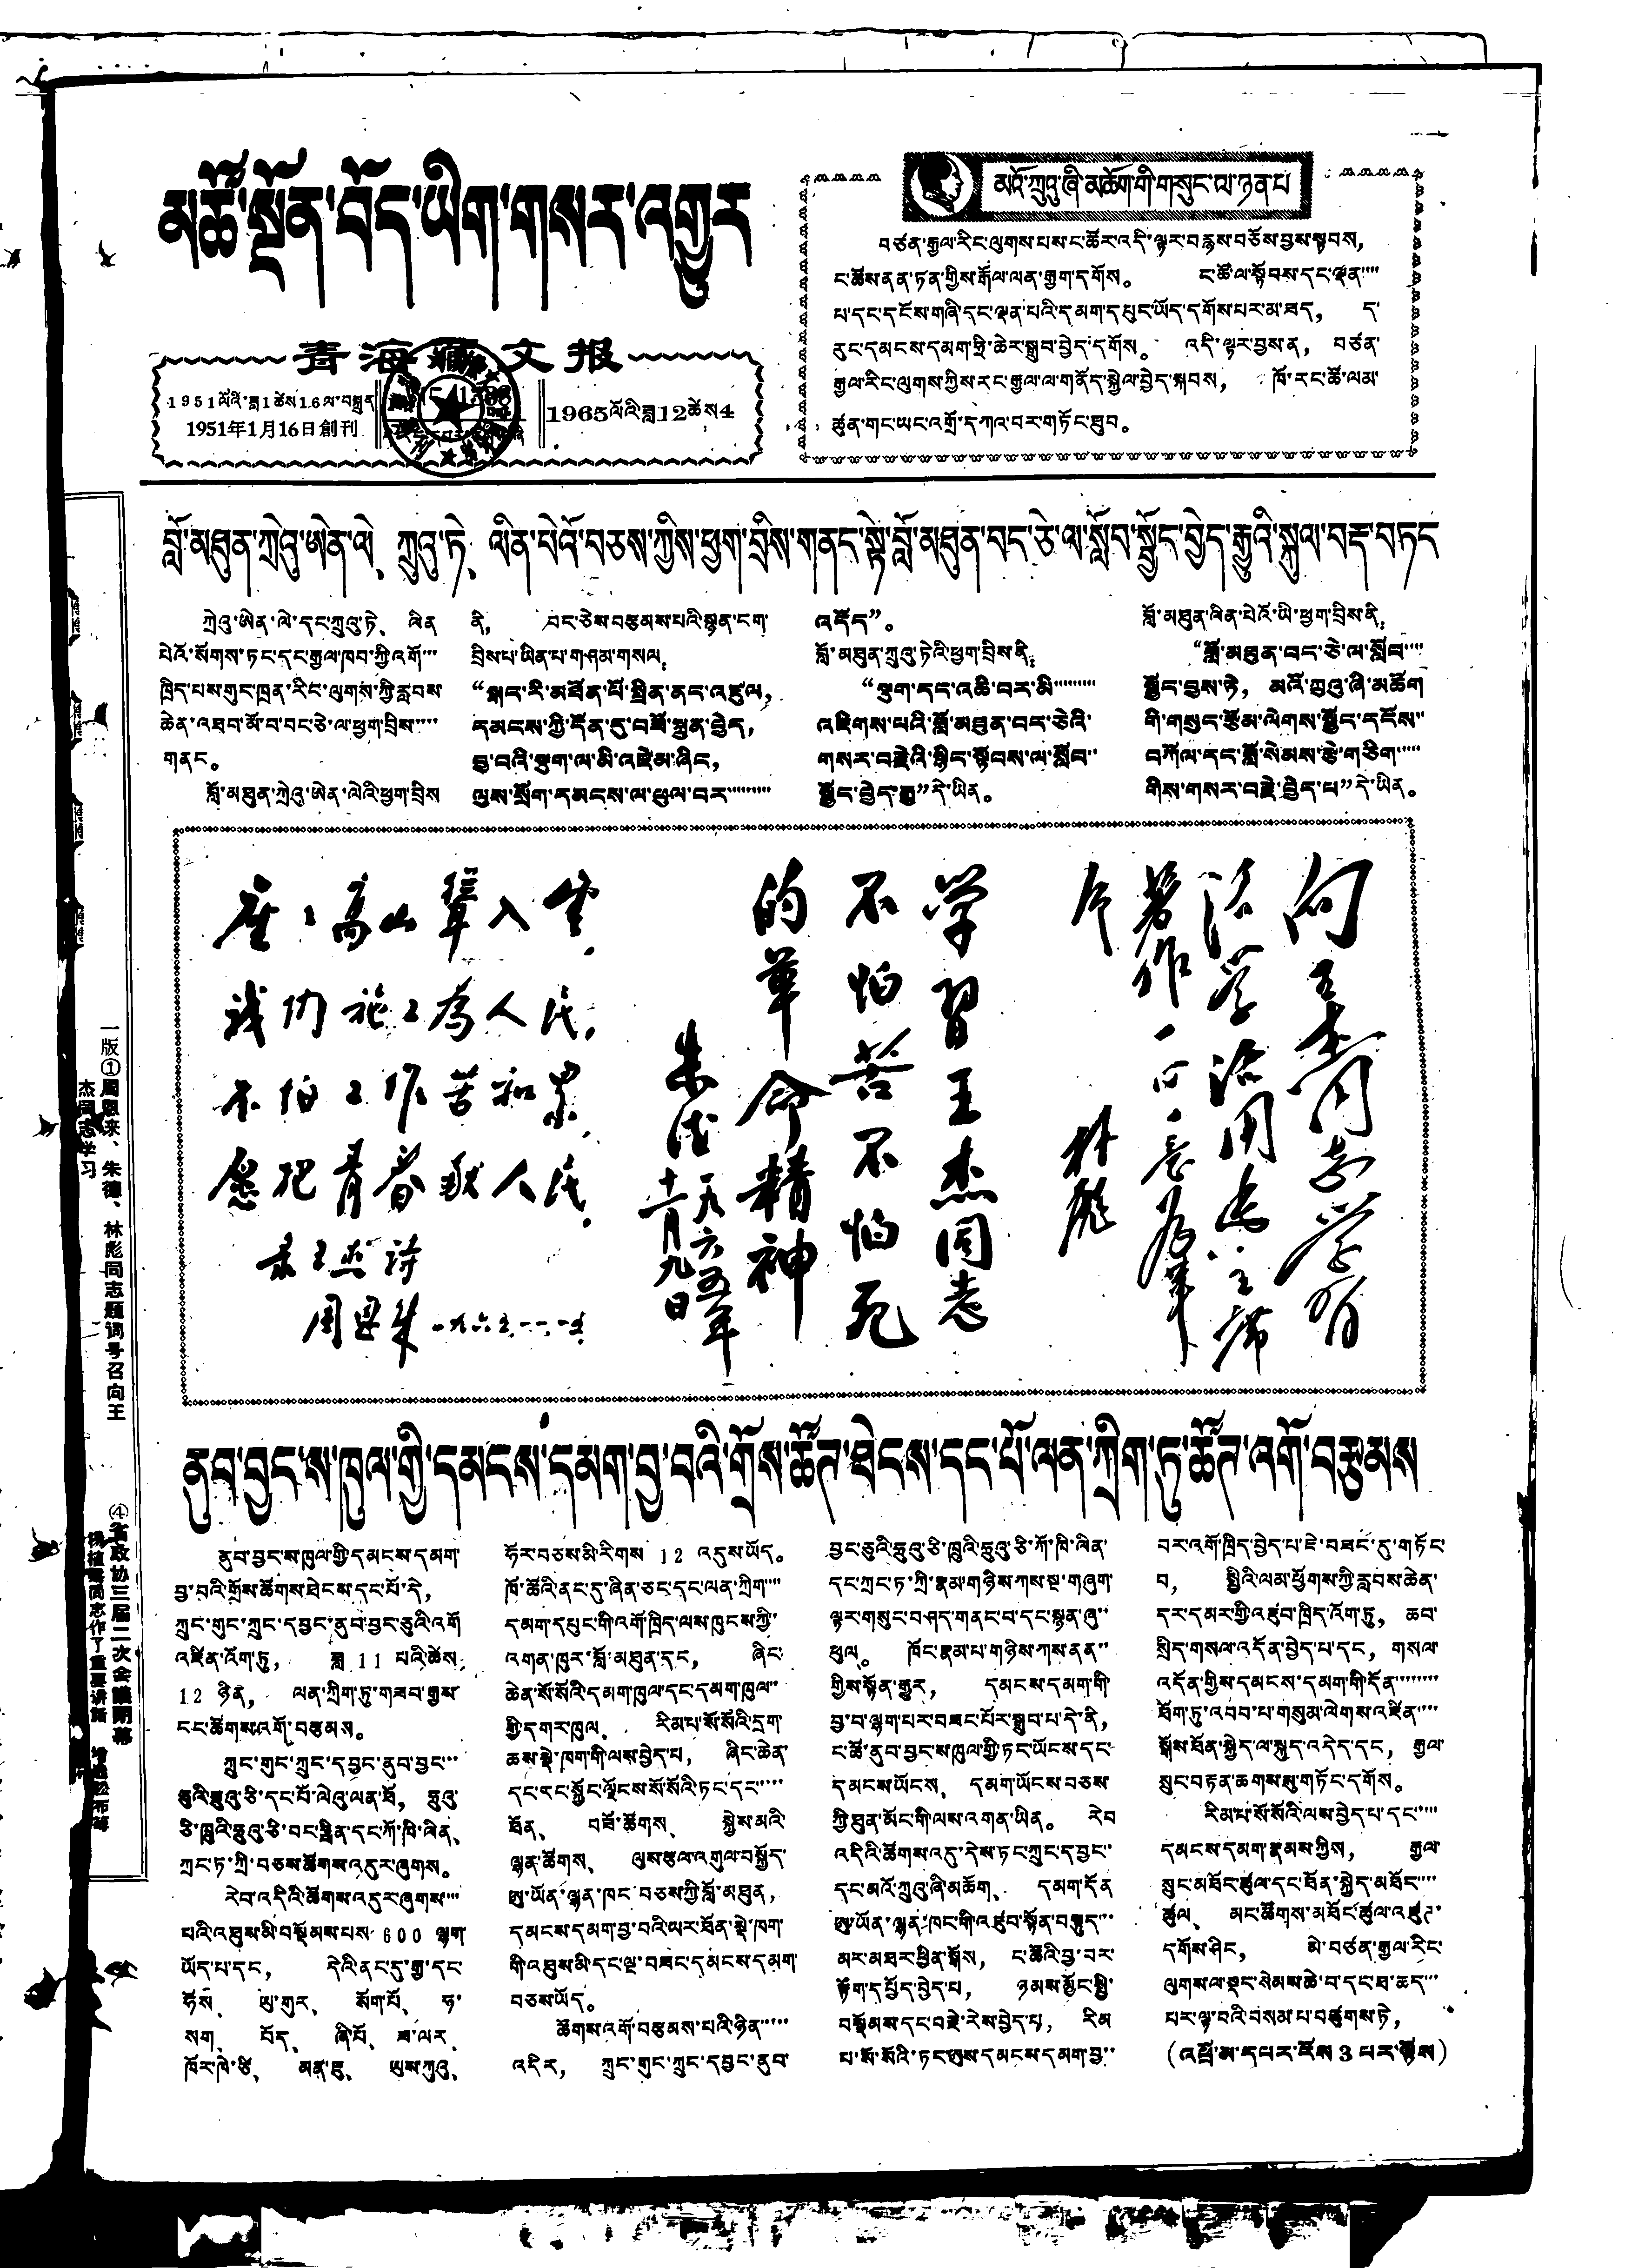མཚོ་སྔོན་བོད་ཡིག་གསར་འགྱུར
青海藏文报
1951ལོའི་ཟླ 1 ཚེས 16 ལ་བསྐྲུན
1951年1月16日創刊
ཨང་ 1338
དེ་རིང་དཔར་ངོས་བཞི
1965ལོའི་ཟླ 12 ཚེས 4
མོ་ཀྲུའུ་ཞི་མཆོག་གི་གསུང་ལ་ཉན་པ
བཙན་རྒྱལ་རིང་ལུགས་པས་ང་ཚོར་འདི་ལྟར་བརྙས་བཅོས་བྱས་སྟབས，
ང་ཚོས་ནན་ཏན་གྱིས་རྒོལ་ལན་རྒྱག་དགོས。 ང་ཚོ་ལ་སྟོབས་དང་ལྡན་་་་
པ་དང་དངོས་གཞི་དང་ལྡན་པའི་དམག་དཔུང་ཡོད་དགོས་པར་མ་ཟད， ད་
རུང་དམངས་དམག་ཧྲི་ཆེར་སྒྲུབ་བྱེད་དགོས。 འདི་ལྟར་བྱས་ན， བཙན་
རྒྱལ་རིང་ལུགས་ཀྱིས་རང་རྒྱལ་ལ་གནོད་སྐྱེལ་བྱེད་སྐབས， ཁོ་རང་ཚོ་ལམ་
ཚུན་གང་ཡང་འགྲོ་དཀའ་བར་གཏོང་ཐུབ。
一版①周恩来、朱德、林彪同志題词号召向王
杰同志学习
④省政协三届二次会議閉幕
楊植霖同志作了重要讲话 增选松布等
བློ་མཐུན་ཀྲེའུ་ཨེན་ལེ、ཀྲུའུ་ཏེ、ལིན་པེའོ་བཅས་ཀྱིས་ཕྱག་བྲིས་གནང་སྟེ་བློ་མཐུན་བང་ཅེ་ལ་སློབ་སྦྱོང་བྱེད་རྒྱུའི་སྐུལ་བརྡ་བཏང
ཀྲེའུ་ཨེན་ལེ་དང་ཀྲུའུ་ཏེ、ལིན
པེའོ་སོགས་ཏང་དང་རྒྱལ་ཁབ་ཀྱི་འགོ་་་
ཁྲིད་པས་གུང་ཁྲན་རིང་ལུགས་ཀྱི་རླབས་
ཆེན་འཐབ་མོ་བ་བང་ཅེ་ལ་ཕྱག་བྲིས་་་་་
གནང。
བློ་མཐུན་ཀྲེའུ་ཨེན་ལེའི་ཕྱག་བྲིས
ནི，བང་ཅེས་བརྩམས་པའི་སྙན་ངག་
བྲིས་པ་ཡིན་པ་གཤམ་གསལ：
“སྒང་རི་མཐོན་པོ་སྤྲིན་ནང་འཛུལ，
དམངས་ཀྱི་དོན་དུ་བཟོ་སྐྲུན་བྱེད，
བྱ་བའི་སྡུག་ལ་མི་འཛེམ་ཞིང，
ལུས་སྲོག་དམངས་ལ་ཕུལ་བར་་་་་་་་་
འདོད”。
བློ་མཐུན་ཀྲུའུ་ཏེའི་ཕྱག་བྲིས་ནི：
“སྡུག་དང་འཆི་བར་མི་་་་་་་་་
འཇིགས་པའི་བློ་མཐུན་བང་ཅེའི་
གསར་བརྗེའི་སྙིང་སྟོབས་ལ་སློབ་་
སྦྱོང་བྱེད་རྒྱ”དེ་ཡིན。
བློ་མཐུན་ལིན་པེའོ་ཡི་ཕྱག་བྲིས་ནི：
“བློ་མཐུན་བང་ཅེ་ལ་སློབ་་་་
སྦྱོང་བྱས་ཏེ，མའོ་ཀྲུའུ་ཞི་མཆོག
གི་གསུང་རྩོམ་ལེགས་སྦྱོང་དངོས་་
བཀོལ་དང་བློ་སེམས་རྩེ་གཅིག་་་་་
གིས་གསར་བརྗེ་བྱེད་པ”དེ་ཡིན。
座座高山聳入雲，
我们施工為人民，
不怕工作苦和累，
愿把青春献人民。
录王杰诗
周恩来 一九六五，一一，一五。
学習王杰同志
不怕苦不怕死
的革命精神
朱德 一九六五年
十一月九日
向王杰同志学習
活学活用為主席
著作一心一意為革
命
林彪
ནུབ་བྱངས་ཁུལ་གྱི་དམངས་དམག་བྱ་བའི་གྲོས་ཚོཊ་ཐེངས་དང་པོ་ལན་ཀྲིག་ཏུ་ཚོཊ་འགོ་བརྩམས
ནུབ་བྱང་ས་ཁུལ་གྱི་དམངས་དམག་
བྱ་བའི་གྲོས་ཚོགས་ཐེངས་དང་པོ་དེ，
ཀྲུང་གུང་ཀྲུང་དབྱང་ནུབ་བྱང་ཅུའི་འགོ
འཛིན་འོག་ཏུ， ཟླ 11 པའི་ཚེས，
12 ཉིན， ལན་ཀྲིག་ཏུ་གཟབ་རྒྱས་
ངང་ཚོགས་འགོ་བརྩམས。
ཀྲུང་གུང་ཀྲུང་དབྱང་ནུབ་བྱང་་་
ཅུའི་ཧྲུའུ་ཅི་དང་པོ་ལེའུ་ལན་ཕོ， ཧྲུའུ་
ཅི་ཁྲུའི་ཧྲུའུ་ཅི་བང་ཧྥིན་དང་ཀོ་ཁི་ལིན、
ཀྲང་ཏ་ཀྲི་བཅས་ཚོགས་འདུར་ཞུགས。
རེབ་འདིའི་ཚོགས་འདུར་ཞུགས་་་་
པའི་འཐུས་མི་བསྡོམས་པས་ 600 ལྷག
ཡོད་པ་དང， དེའི་ནང་དུ་རྒྱ་དང་
ཧོས、 ཡུ་གུར、 སོག་པོ、 ཧ་
སག、 བོད、 ཞི་པོ、 ཟ་ལར、
ཁོར་ཁེ་ཙི、 མན་ཇུ、 ཡུས་ཀུའུ、
ཧོར་བཅས་མི་རིགས 12 འདུས་ཡོད。
ཁོ་ཚོའི་ནང་དུ་ཞིན་ཅང་དང་ལན་ཀྲིག་་་་
དམག་དཔུང་གི་འགོ་ཁྲིད་ལས་ཁུངས་ཀྱི་
འགན་ཁུར་བློ་མཐུན་དང， ཞིང་
ཆེན་སོ་སོའི་དམག་ཁུལ་དང་དམག་ཁུལ་་
གྱི་དགར་ཁུལ、 རིམ་པ་སོ་སོའི་དྲག་
ཆས་སྡེ་ཁག་གི་ལས་བྱེད་པ， ཞིང་ཆེན་
དང་རང་སྐྱོང་ལྗོངས་སོ་སོའི་ཏང་དང་་་་་
ཐོན、 བཟོ་ཚོགས、 སྐྱེས་མའི་
ལྷན་ཚོགས、 ལུས་རྩལ་འགུལ་བསྐྱོད་
ཨུ་ཡོན་ལྷན་ཁང་བཅས་ཀྱི་བློ་མཐུན，
དམངས་དམག་བྱ་བའི་ཡར་ཐོན་སྡེ་ཁག་
གི་འཐུས་མི་དང་ལྔ་བཟང་དམངས་དམག་
བཅས་ཡོད。
ཚོགས་འགོ་བརྩམས་པའི་ཉིན་་་་་
འདིར， ཀྲུང་གུང་ཀྲུང་དབྱང་ནུབ་
བྱང་ཅུའི་ཧྲུའུ་ཅི་ཁྲུའི་ཧྲུའུ་ཅི་ཀོ་ཁི་ལིན་
དང་ཀྲུང་ཏ་ཀྲི་རྣམ་གཉིས ཀས་སྔ་གཞུག་
ལྟར་གསུང་བཤད་གནང་བ་དང་སྙན་ཞུ་་
ཕུལ。 ཁོང་རྣམ་པ་གཉིས་ཀས་ནན་་
གྱིས་སྟོན་རྒྱུར， དམངས་དམག་གི་
བྱ་བ་ལྷག་པར་བཟང་པོར་སྒྲུབ་པ་དེ་ནི，
ང་ཚོ་ནུབ་བྱང་ས་ཁུལ་གྱི་ཏང་ཡོངས་དང་
དམངས་ཡོངས、 དམག་ཡོངས་བཅས་
ཀྱི་ཐུན་མོང་གི་ལས་འགན་ཡིན。 རེབ
འདིའི་ཚོགས་འདུ་དེས་ཏང་ཀྲུང་དབྱང་་
དང་མའོ་ཀྲུའུ་ཞི་མཆོག、 དམག་དོན
ཨུ་ཡོན་ལྷན་ཁང་གི་འཛུབ་སྟོན་བསྟུད་་་
མར་མཐར་ཕྱིན་སྒོས， ང་ཚོའི་བྱ་བར་
རྟོག་དཔྱོད་བྱེད་པ， ཉམས་མྱོང་སྤྱི་
བསྡོམས་དང་བརྗེ་རེས་བྱེད་པ， རིམ
པ་སོ་སོའི་ཏང་ཨུས་དམངས་དམག་བྱ་་
བར་འགོ་ཁྲིད་བྱེད་པ་ཇེ་བཟང་དུ་གཏོང་
བ， སྤྱིའི་ལམ་ཕྱོགས་ཀྱི་རླབས་ཆེན་
དར་དམར་གྱི་འཛུབ་ཁྲིད་འོག་ཏུ， ཆབ་
སྲིད་གསལ་འདོན་བྱེད་པ་དང， གསལ་
འདོན་གྱིས་དམངས་དམག་གི་དོན་་་་་་་་
ཐོག་ཏུ་འབབ་པ་གསུམ་ལེགས་འཛིན་་་་
སྒོས་ཐོན་སྐྱེད་ལ་སྐུད་འདེད་དང， རྒྱལ་
སྲུང་བརྟན་ཆགས་སུ་གཏོང་དགོས。
རིམ་པ་སོ་སོའི་ལས་བྱེད་པ་དང་་་་་
དམངས་དམག་རྣམས་ཀྱིས， རྒྱལ་
སྲུང་མཐོང་ཚུལ་དང་ཐོན་སྐྱེད་མཐོང་་་་་
ཚུལ、 མང་ཚོགས་མཐོང་ཚུལ་འཛུཊ་
དགོས་ཤིང， མེ་བཙན་རྒྱལ་རིང་
ལུགས་ལ་སྡུང་སེམས་ཆེ་བ་དང་ཐ་ཆད་་་
པར་ལྟ་བའི་བསམ་པ་བཙུགས་ཏེ，
(འཕྲོ་མ་དཔར་ངོས 3 པར་ལྟོས)
